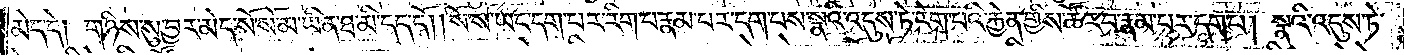མེད་དེ། གཉིས་སུ་བྱར་མེད་སོ་སོ་མ་ཡིན་ཐ་མི་དད་དོ། །སོ་སོ་ཡང་དག་པར་རིག་པ་རྣམ་པར་དག་པས་སྣའི་འདུས་ཏེ་རེག་པའི་རྐྱེན་གྱིས་ཚོར་བ་རྣམ་པར་དག་པ། སྣའི་འདུས་ཏེ་
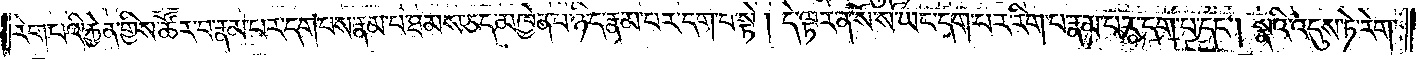རེག་པའི་རྐྱེན་གྱིས་ཚོར་བ་རྣམ་པར་དག་པས་རྣམ་པ་ཐམས་ཅད་མཁྱེན་པ་ཉིད་རྣམ་པར་དག་པ་སྟེ། དེ་ལྟར་ན་སོ་སོ་ཡང་དག་པར་རིག་པ་རྣམ་པར་དག་པ་དང༌། སྣའི་འདུས་ཏེ་རེག་
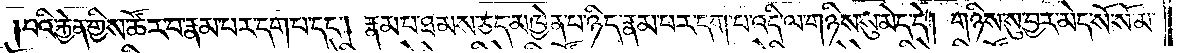པའི་རྐྱེན་གྱིས་ཚོར་བ་རྣམ་པར་དག་པ་དང༌། རྣམ་པ་ཐམས་ཅད་མཁྱེན་པ་ཉིད་རྣམ་པར་དག་པ་འདི་ལ་གཉིས་སུ་མེད་དེ། གཉིས་སུ་བྱར་མེད་སོ་སོ་མ་
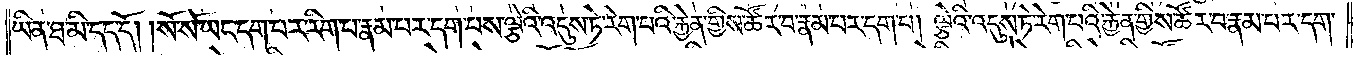ཡིན་ཐ་མི་དད་དོ། །སོ་སོ་ཡང་དག་པར་རིག་པ་རྣམ་པར་དག་པས་ལྕེའི་འདུས་ཏེ་རེག་པའི་རྐྱེན་གྱིས་ཚོར་བ་རྣམ་པར་དག་པ། ལྕེའི་འདུས་ཏེ་རེག་པའི་རྐྱེན་གྱིས་ཚོར་བ་རྣམ་པར་དག་
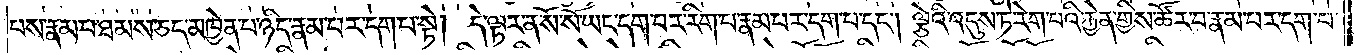པས་རྣམ་པ་ཐམས་ཅད་མཁྱེན་པ་ཉིད་རྣམ་པར་དག་པ་སྟེ། དེ་ལྟར་ན་སོ་སོ་ཡང་དག་པར་རིག་པ་རྣམ་པར་དག་པ་དང༌། ལྕེའི་འདུས་ཏེ་རེག་པའི་རྐྱེན་གྱིས་ཚོར་བ་རྣམ་པར་དག་པ་
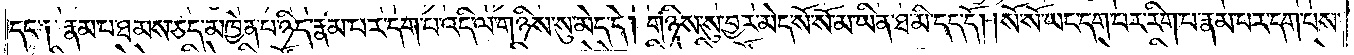དང་༑ རྣམ་པ་ཐམས་ཅད་མཁྱེན་པ་ཉིད་རྣམ་པར་དག་པ་འདི་ལ་གཉིས་སུ་མེད་དེ། གཉིས་སུ་བྱར་མེད་སོ་སོ་མ་ཡིན་ཐ་མི་དད་དོ། །སོ་སོ་ཡང་དག་པར་རིག་པ་རྣམ་པར་དག་པས་
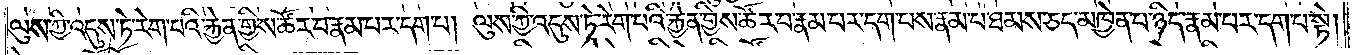ལུས་ཀྱི་འདུས་ཏེ་རེག་པའི་རྐྱེན་གྱིས་ཚོར་བ་རྣམ་པར་དག་པ། ལུས་ཀྱི་འདུས་ཏེ་རེག་པའི་རྐྱེན་གྱིས་ཚོར་བ་རྣམ་པར་དག་པས་རྣམ་པ་ཐམས་ཅད་མཁྱེན་པ་ཉིད་རྣམ་པར་དག་པ་སྟེ།
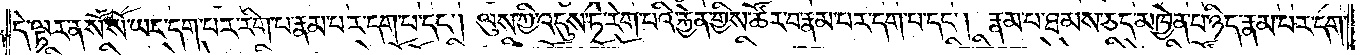དེ་ལྟར་ན་སོ་སོ་ཡང་དག་པར་རིག་པ་རྣམ་པར་དག་པ་དང༌། ལུས་ཀྱི་འདུས་ཏེ་རེག་པའི་རྐྱེན་གྱིས་ཚོར་བ་རྣམ་པར་དག་པ་དང༌། རྣམ་པ་ཐམས་ཅད་མཁྱེན་པ་ཉིད་རྣམ་པར་དག་
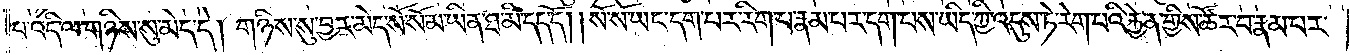པ་འདི་ལ་གཉིས་སུ་མེད་དེ། གཉིས་སུ་བྱར་མེད་སོ་སོ་མ་ཡིན་ཐ་མི་དད་དོ། །སོ་སོ་ཡང་དག་པར་རིག་པ་རྣམ་པར་དག་པས་ཡིད་ཀྱི་འདུས་ཏེ་རེག་པའི་རྐྱེན་གྱིས་ཚོར་བ་རྣམ་པར་
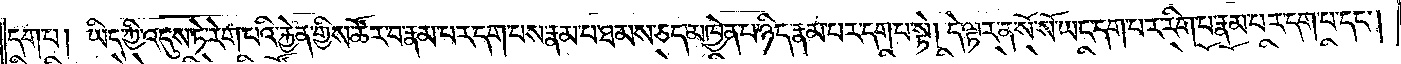དག་པ། ཡིད་ཀྱི་འདུས་ཏེ་རེག་པའི་རྐྱེན་གྱིས་ཚོར་པ་རྣམ་པར་དག་པས་རྣམ་པ་ཐམས་ཅད་མཁྱེན་པ་ཉིད་རྣམ་པར་དག་པ་སྟེ། དེ་ལྟར་ན་སོ་སོ་ཡང་དག་པར་རིག་པ་རྣམ་པར་དག་པ་དང༌།
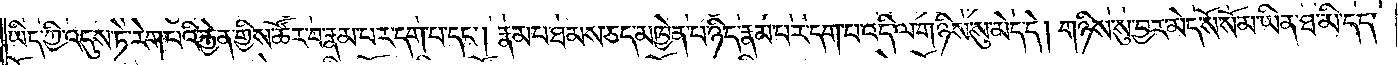ཡིད་ཀྱི་འདུས་ཏེ་རེག་པའི་རྐྱེན་གྱིས་ཚོར་བ་རྣམ་པར་དག་པ་དང༌། རྣམ་པ་ཐམས་ཅད་མཁྱེན་པ་ཉིད་རྣམ་པར་དག་པ་འདི་ལ་གཉིས་སུ་མེད་དེ། གཉིས་སུ་བྱར་མེད་སོ་སོ་མ་ཡིན་ཐ་མི་དད་
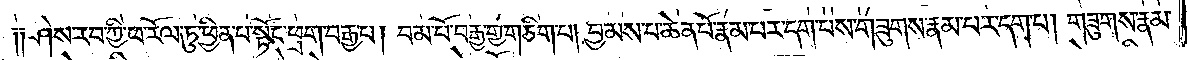དོ༑༑ ༑༑ཤེས་རབ་ཀྱི་ཕ་རོལ་ཏུ་ཕྱིན་པ་སྟོང་ཕྲག་བརྒྱ་པ། བམ་པོ་བརྒྱ་གྱ་གཅིག་པ། བྱམས་པ་ཆེན་པོ་རྣམ་པར་དག་པས་གཟུགས་རྣམ་པར་དག་པ། གཟུགས་རྣམ་
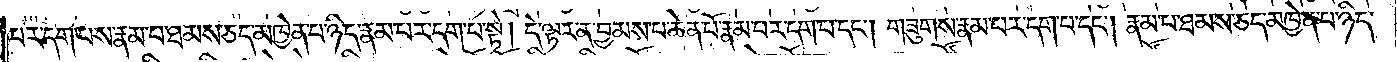པར་དག་པས་རྣམ་པ་ཐམས་ཅད་མཁྱེན་པ་ཉིད་རྣམ་པར་དག་པ་སྟེ། དེ་ལྟར་ན་བྱམས་པ་ཆེན་པོ་རྣམ་པར་དག་པ་དང༌། གཟུགས་རྣམ་པར་དག་པ་དང༌། རྣམ་པ་ཐམས་ཅད་མཁྱེན་པ་ཉིད་
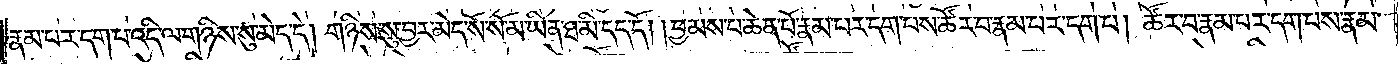རྣམ་པར་དག་པ་འདི་ལ་གཉིས་སུ་མེད་དེ། གཉིས་སུ་བྱར་མེད་སོ་སོ་མ་ཡིན་ཐ་མི་དད་དོ། །བྱམས་པ་ཆེན་པོ་རྣམ་པར་དག་པས་ཚོར་བ་རྣམ་པར་དག་པ། ཚོར་བ་རྣམ་པར་དག་པས་རྣམ་
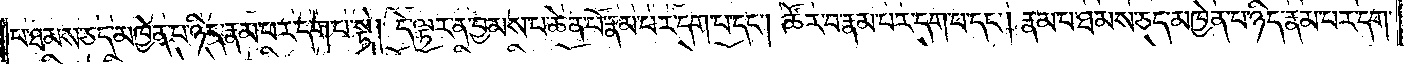པ་ཐམས་ཅད་མཁྱེན་པ་ཉིད་རྣམ་པར་དག་པ་སྟེ། དེ་ལྟར་ན་བྱམས་པ་ཆེན་པོ་རྣམ་པར་དག་པ་དང༌། ཚོར་བ་རྣམ་པར་དག་པ་དང༌། རྣམ་པ་ཐམས་ཅད་མཁྱེན་པ་ཉིད་རྣམ་པར་དག་
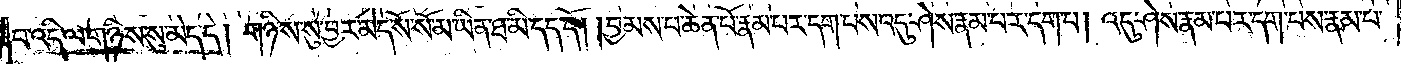པ་འདི་ལ་གཉིས་སུ་མེད་དེ། གཉིས་སུ་བྱར་མེད་སོ་སོ་མ་ཡིན་ཐ་མི་དད་དོ། །བྱམས་པ་ཆེན་པོ་རྣམ་པར་དག་པས་འདུ་ཤེས་རྣམ་པར་དག་པ། འདུ་ཤེས་རྣམ་པར་དག་པས་རྣམ་པ་
